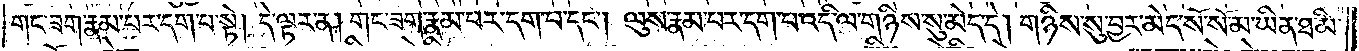གང་ཟག་རྣམ་པར་དག་པ་སྟེ། དེ་ལྟར་ན། གང་ཟག་རྣམ་པར་དག་པ་དང༌། ལུས་རྣམ་པར་དག་པ་འདི་ལ་གཉིས་སུ་མེད་དེ། གཉིས་སུ་བྱར་མེད་སོ་སོ་མ་ཡིན་ཐ་མི་
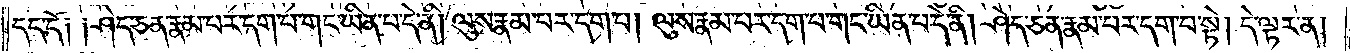དད་དོ༑ ༑ཤེད་ཅན་རྣམ་པར་དག་པ་གང་ཡིན་པ་དེ་ནི། ལུས་རྣམ་པར་དག་པ། ལུས་རྣམ་པར་དག་པ་གང་ཡིན་པ་དེ་ནི། ཤེད་ཅན་རྣམ་པར་དག་པ་སྟེ། དེ་ལྟར་ན།
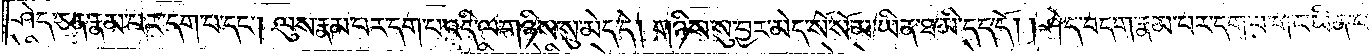ཤེད་ཅན་རྣམ་པར་དག་པ་དང༌། ལུས་རྣམ་པར་དག་པ་འདི་ལ་གཉིས་སུ་མེད་དེ། གཉིས་སུ་བྱར་མེད་སོ་སོ་མ་ཡིན་ཐ་མི་དད་དོ། །ཤེད་བདག་རྣམ་པར་དག་པ་གང་ཡིན་པ་
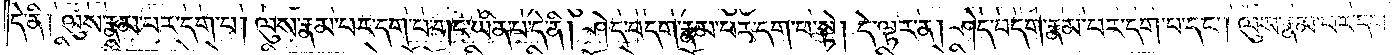དེ་ནི༑ ལུས་རྣམ་པར་དག་པ། ལུས་རྣམ་པར་དག་པ་གང་ཡིན་པ་དེ་ནི། ཤེད་བདག་རྣམ་པར་དག་པ་སྟེ། དེ་ལྟར་ན། ཤེད་བདག་རྣམ་པར་དག་པ་དང༌། ལུས་རྣམ་པར་དག་
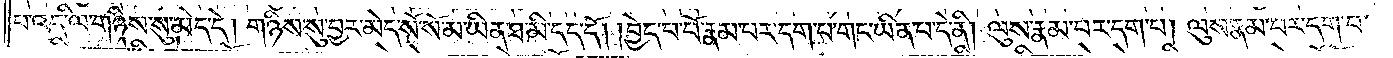པ་འདི་ལ་གཉིས་སུ་མེད་དེ། གཉིས་སུ་བྱར་མེད་སོ་སོ་མ་ཡིན་ཐ་མི་དད་དོ། །བྱེད་པ་པོ་རྣམ་པར་དག་པ་གང་ཡིན་པ་དེ་ནི། ལུས་རྣམ་པར་དག་པ། ལུས་རྣམ་པར་དག་པ་
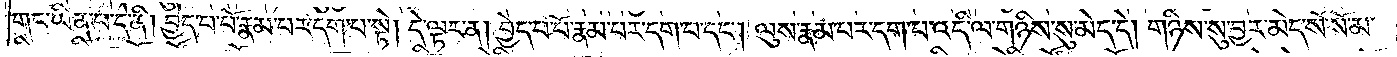གང་ཡིན་པ་དེ་ནི། བྱེད་པ་པོ་རྣམ་པར་དག་པ་སྟེ། དེ་ལྟར་ན། བྱེད་པ་པོ་རྣམ་པར་དག་པ་དང༌། ལུས་རྣམ་པར་དག་པ་འདི་ལ་གཉིས་སུ་མེད་དེ། གཉིས་སུ་བྱར་མེད་སོ་སོ་མ་
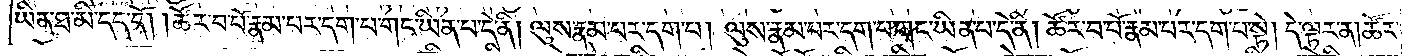ཡིན་ཐ་མི་དད་དོ། །ཚོར་བ་པོ་རྣམ་པར་དག་པ་གང་ཡིན་པ་དེ་ནི། ལུས་རྣམ་པར་དག་པ། ལུས་རྣམ་པར་དག་པ་གང་ཡིན་པ་དེ་ནི། ཚོར་བ་པོ་རྣམ་པར་དག་པ་སྟེ། དེ་ལྟར་ན། ཚོར་
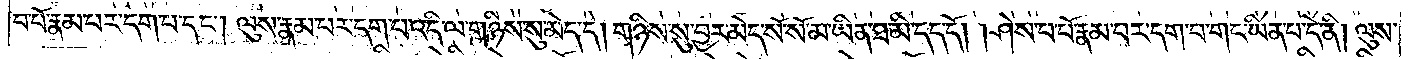བ་པོ་རྣམ་པར་དག་པ་དང༌། ལུས་རྣམ་པར་དག་པ་འདི་ལ་གཉིས་སུ་མེད་དེ། གཉིས་སུ་བྱར་མེད་སོ་སོ་མ་ཡིན་ཐ་མི་དད་དོ། །ཤེས་པ་པོ་རྣམ་པར་དག་པ་གང་ཡིན་པ་དེ་ནི། ལུས་
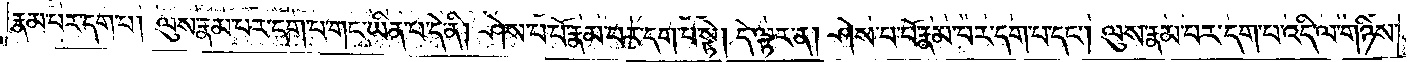རྣམ་པར་དག་པ། ལུས་རྣམ་པར་དག་པ་གང་ཡིན་པ་དེ་ནི། ཤེས་པ་པོ་རྣམ་པར་དག་པ་སྟེ། དེ་ལྟར་ན། ཤེས་པ་པོ་རྣམ་པར་དག་པ་དང༌། ལུས་རྣམ་པར་དག་པ་འདི་ལ་གཉིས་
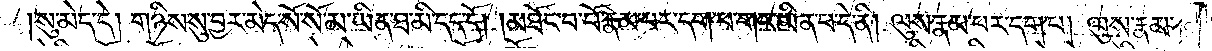སུ་མེད་དེ། གཉིས་སུ་བྱར་མེད་སོ་སོ་མ་ཡིན་ཐ་མི་དད་དོ། །མཐོང་བ་པོ་རྣམ་པར་དག་པ་གང་ཡིན་པ་དེ་ནི། ལུས་རྣམ་པར་དག་པ། ལུས་རྣམ་
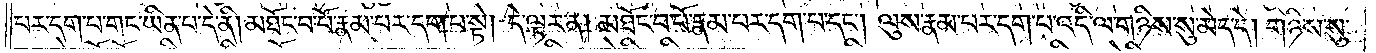པར་དག་པ་གང་ཡིན་པ་དེ་ནི། མཐོང་བ་པོ་རྣམ་པར་དག་པ་སྟེ། དེ་ལྟར་ན། མཐོང་བ་པོ་རྣམ་པར་དག་པ་དང༌། ལུས་རྣམ་པར་དག་པ་འདི་ལ་གཉིས་སུ་མེད་དེ། གཉིས་སུ་
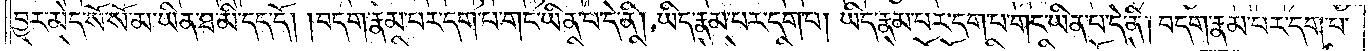བྱར་མེད་སོ་སོ་མ་ཡིན་ཐ་མི་དད་དོ། །བདག་རྣམ་པར་དག་པ་གང་ཡིན་པ་དེ་ནི། ཡིད་རྣམ་པར་དག་པ། ཡིད་རྣམ་པར་དག་པ་གང་ཡིན་པ་དེ་ནི། བདག་རྣམ་པར་དག་པ་
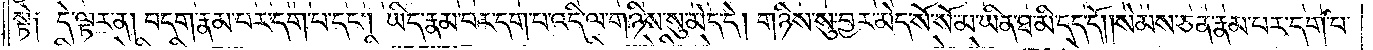སྟེ༑ དེ་ལྟར་ན། བདག་རྣམ་པར་དག་པ་དང༌། ཡིད་རྣམ་པར་དག་པ་འདི་ལ་གཉིས་སུ་མེད་དེ། གཉིས་སུ་བྱར་མེད་སོ་སོ་མ་ཡིན་ཐ་མི་དད་དོ། །སེམས་ཅན་རྣམ་པར་དག་པ་
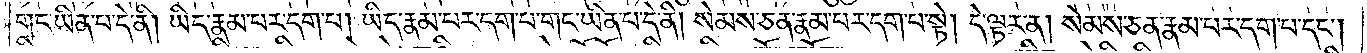གང་ཡིན་པ་དེ་ནི། ཡིད་རྣམ་པར་དག་པ། ཡིད་རྣམ་པར་དག་པ་གང་ཡིན་པ་དེ་ནི། སེམས་ཅན་རྣམ་པར་དག་པ་སྟེ། དེ་ལྟར་ན། སེམས་ཅན་རྣམ་པར་དག་པ་དང༌།
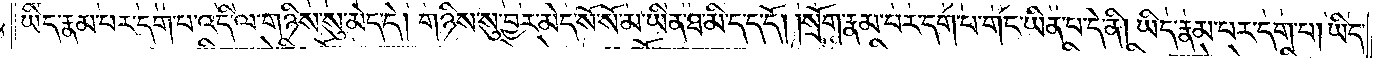ཡིད་རྣམ་པར་དག་པ་འདི་ལ་གཉིས་སུ་མེད་དེ། གཉིས་སུ་བྱར་མེད་སོ་སོ་མ་ཡིན་ཐ་མི་དད་དོ། །སྲོག་རྣམ་པར་དག་པ་གང་ཡིན་པ་དེ་ནི། ཡིད་རྣམ་པར་དག་པ། ཡིད་
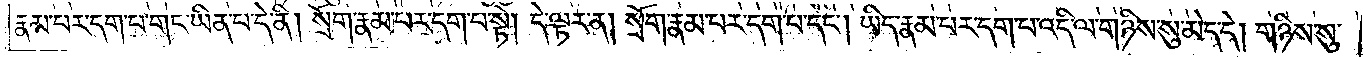རྣམ་པར་དག་པ་གང་ཡིན་པ་དེ་ནི། སྲོག་རྣམ་པར་དག་པ་སྟེ། དེ་ལྟར་ན། སྲོག་རྣམ་པར་དག་པ་དང༌། ཡིད་རྣམ་པར་དག་པ་འདི་ལ་གཉིས་སུ་མེད་དེ། གཉིས་སུ་
